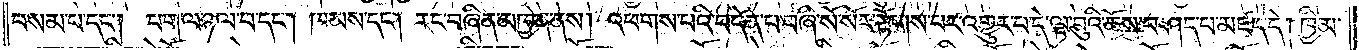བསམ་པ་དང༌། བག་ལ་ཉལ་བ་དང༌། ཁམས་དང༌། རང་བཞིན་མཁྱེན་ནས། འཕགས་པའི་བདེན་པ་བཞི་སོ་སོར་རྟོགས་པར་འགྱུར་བ་དེ་ལྟ་བུའི་ཆོས་བཤད་པ་མཛད་དེ། ཁྱིམ་
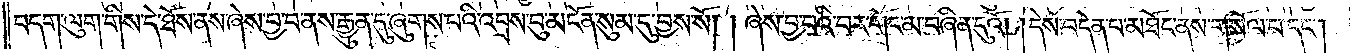བདག་ལུག་གིས་དེ་ཐོས་ནས་ཞེས་བྱ་བ་ནས་རྒྱུན་དུ་ཞུགས་པའི་འབྲས་བུ་མངོན་སུམ་དུ་བྱས་སོ། །ཞེས་བྱ་བའི་བར་གོང་མ་བཞིན་དུའོ། །དེས་བདེན་པ་མཐོང་ནས་གསོལ་བ་དང༌།
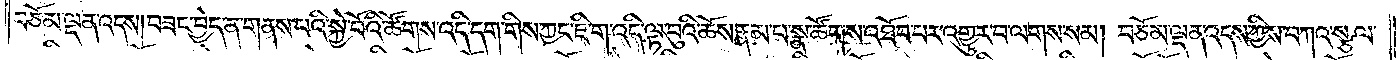བཅོམ་ལྡན་འདས། བཟང་བྱེད་ན་གནས་པའི་སྐྱེ་བོའི་ཚོགས་འདི་དག་གིས་ཀྱང་ཇི་ག་འདི་ལྟ་བུའི་ཆོས་རྣམ་པ་སྣ་ཚོགས་འཐོབ་པར་འགྱུར་པ་ལགས་སམ། བཅོམ་ལྡན་འདས་ཀྱིས་བཀའ་སྩལ་
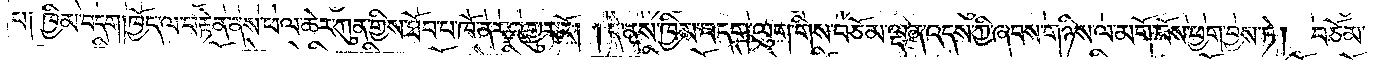པ༑ ཁྱིམ་བདག །ཁྱོད་ལ་བརྟེན་ནས་ཕལ་ཆེར་ཀུན་གྱིས་ཐོབ་པ་ཁོ་ནར་འགྱུར་རོ། །དེ་ནས་ཁྱིམ་བདག་ལུག་གིས་བཅོམ་ལྡན་འདས་ཀྱི་ཞབས་གཉིས་ལ་མགོ་བོས་ཕྱག་བྱས་ཏེ། བཅོམ་
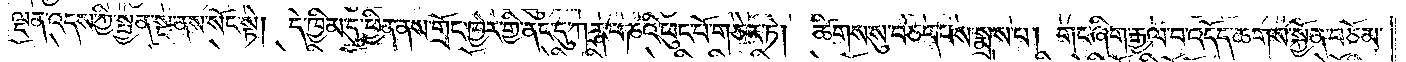ལྡན་འདས་ཀྱི་སྤྱན་སྔ་ནས་སོང་སྟེ། དེ་ཁྱིམ་དུ་ཕྱིན་ནས་གྲོང་ཁྱེར་གྱི་ནང་དུ་ཀརྴ་པ་ཎའི་ཕུང་པོ་གཅེར་ཏེ། ཚིགས་སུ་བཅད་པས་སྨྲས་པ། གང་ཞིག་རྒྱལ་བ་འདོད་ཆགས་སྐྱོན་བཅོམ་
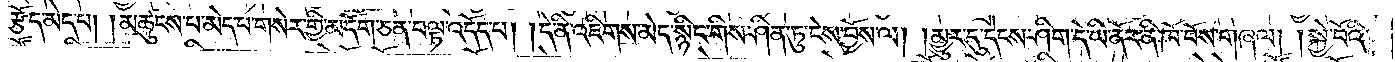རྩོད་མེད་པ། །མཚུངས་པ་མེད་པ་གསེར་གྱི་མདོག་ཅན་བལྟ་འདོད་པ། །དེ་ནི་འཇིགས་མེད་སྙིང་གིས་ཤིན་ཏུ་ངེས་བྱོས་ལ། །མྱུར་དུ་དེངས་ཤིག་དེ་ཡི་ནོར་ནི་ཁོ་བོས་གཞལ། །སྐྱེ་བོའི་
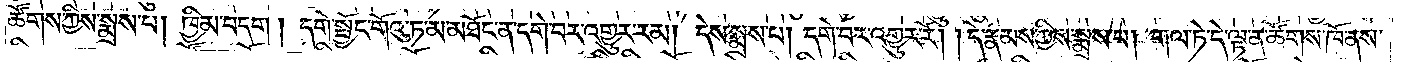ཚོགས་ཀྱིས་སྨྲས་པ། ཁྱིམ་བདག །དགེ་སྦྱོང་གོའུ་ཏ་མ་མཐོང་ན་དགེ་བར་འགྱུར་རམ། དེས་སྨྲས་པ། དགེ་བར་འགྱུར་རོ། །དེ་རྣམས་ཀྱིས་སྨྲས་པ། གལ་ཏེ་དེ་ལྟ་ན་ཚོགས་ཁོ་ནས་
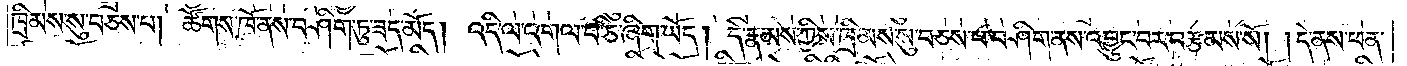ཁྲིམས་སུ་བཅས་པ། ཚོགས་ཁོ་ནས་བཤིག་ཏུ་ཟད་མོད། འདི་ལ་འགལ་བ་ཅི་ཞིག་ཡོད། དེ་རྣམས་ཀྱིས་ཁྲིམས་སུ་བཅས་པ་བཤིག་ནས་འབྱུང་བར་བརྩམས་སོ། །དེ་ནས་ཕན་
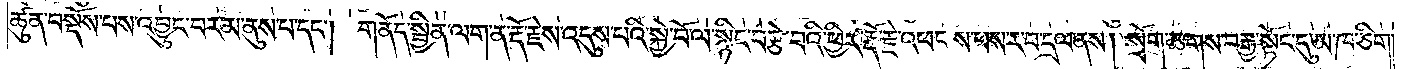ཚུན་བསྡོས་པས་འབྱུང་བར་མ་ནུས་པ་དང༌། གནོད་སྦྱིན་ལག་ན་རྡོ་རྗེས་འདུས་པའི་སྐྱེ་བོ་ལ་སྙིང་བརྩེ་བའི་ཕྱིར་རྡོ་རྗེ་འཕངས་པས་ར་བ་དྲལ་ནས། སྲོག་ཆགས་བརྒྱ་སྟོང་དུ་མ་ཁ་ཅིག་
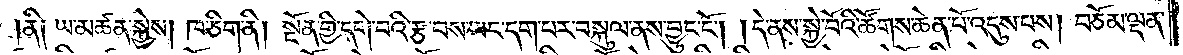ནི༑ ཡ་མཚན་སྐྱེས། ཁ་ཅིག་ནི། སྔོན་གྱི་དགེ་བའི་རྩ་བས་ཡང་དག་པར་བསྐུལ་ནས་བྱུང་ངོ༌། །དེ་ནས་སྐྱེ་བོའི་ཚོགས་ཆེན་པོ་འདུས་བས། བཅོམ་ལྡན་
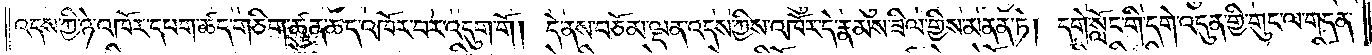འདས་ཀྱི་ཉེ་འཁོར་དཔག་ཚད་གཅིག་ཚུན་ཆད་འཁོར་བར་འདུག་གོ །དེ་ནས་བཅོམ་ལྡན་འདས་ཀྱིས་འཁོར་དེ་རྣམས་ཟིལ་གྱིས་མནན་ཏེ། དགེ་སློང་གི་དགེ་འདུན་གྱི་གུང་ལ་གདན་
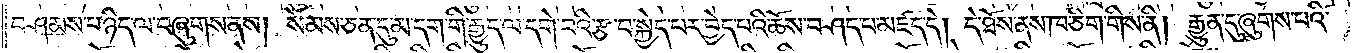བཤམས་པ་ཉིད་ལ་བཞུགས་ནས། སེམས་ཅན་དུ་མ་དག་གི་རྒྱུད་ལ་དགེ་བའི་རྩ་བ་སྐྱེད་པར་བྱེད་པའི་ཆོས་བཤད་པ་མཛད་དེ། དེ་ཐོས་ནས་ཁ་ཅིག་གིས་ནི། རྒྱུན་དུ་ཞུགས་པའི་
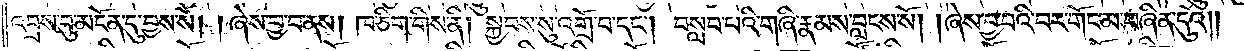འབྲས་བུ་མངོན་དུ་བྱས་སོ། །ཞེས་བྱ་བ་ནས། ཁ་ཅིག་གིས་ནི། སྐྱབས་སུ་འགྲོ་བ་དང༌། བསླབ་པའི་གཞི་རྣམས་བླངས་སོ། །ཞེས་བྱ་བའི་བར་གོང་མ་བཞིན་དུའོ༎
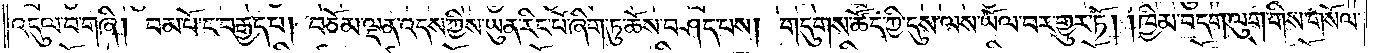འདུལ་བ་གཞི། བམ་པོ་ང་བརྒྱད་པ། བཅོམ་ལྡན་འདས་ཀྱིས་ཡུན་རིང་པོ་ཞིག་ཏུ་ཆོས་བཤད་པས།  གདུགས་ཚོད་ཀྱི་དུས་ལས་ཡོལ་བར་གྱུར་ཏོ། །ཁྱིམ་བདག་ལུག་གིས་གསོལ་
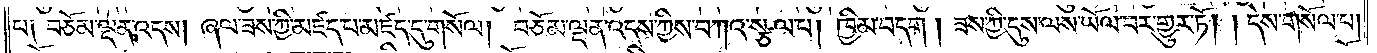པ༑ བཅོམ་ལྡན་འདས། ཞལ་ཟས་ཀྱི་མཛད་པ་མཛད་དུ་གསོལ། བཅོམ་ལྡན་འདས་ཀྱིས་བཀའ་སྩལ་པ། ཁྱིམ་བདག །ཟས་ཀྱི་དུས་ལས་ཡོལ་བར་གྱུར་ཏོ། །དེས་གསོལ་པ།
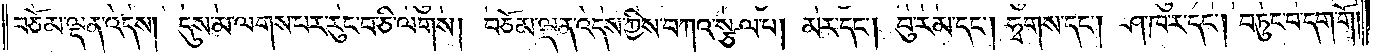བཅོམ་ལྡན་འདས། དུས་མ་ལགས་པར་རུང་བ་ཅི་ལགས། བཅོམ་ལྡན་འདས་ཀྱིས་བཀའ་སྩལ་པ། མར་དང༌། བུ་རམ་དང༌། ཧྭགས་དང༌། ཤ་ཁ་ར་དང༌། བཏུང་བ་དག་གོ།
